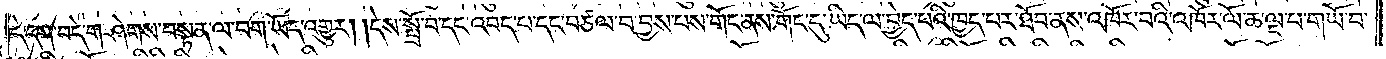དེ་དག་བདེ་གཤེགས་བསྟན་ལ་བག་ཡོད་འགྱུར། །དེས་སྤྲོ་བ་དང་འབད་པ་དང་བཙལ་བ་བྱས་པས་གོང་ནས་གོང་དུ་ཡིད་ལ་བྱེད་པའི་ཁྱད་པར་ཐོབ་ནས་འཁོར་བའི་འཁོར་ལོ་ཆ་ལྔ་པ་གཡོ་བ་
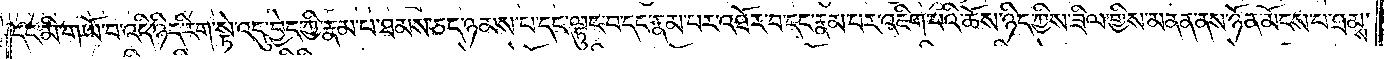དང་མི་གཡོ་བ་འདི་ཉིད་རིག་སྟེ་འདུ་བྱེད་ཀྱི་རྣམ་པ་ཐམས་ཅད་ཉམས་པ་དང་ལྟུང་བ་དང་རྣམ་པར་འཐོར་བ་དང་རྣམ་པར་འཇིག་པའི་ཆོས་ཉིད་ཀྱིས་ཟིལ་གྱིས་མནན་ནས་ཉོན་མོངས་པ་ཐམས་
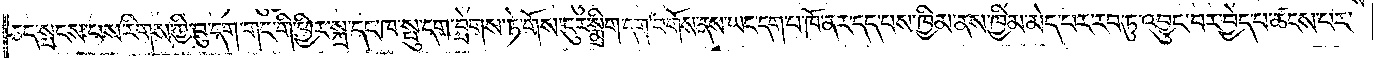ཅད་སྤངས་པས་རིགས་ཀྱི་བུ་དག་གང་གི་ཕྱིར་སྐྲ་དང་ཁ་སྤུ་དག་བྲེགས་ཏེ་གོས་ངུར་སྨྲིག་དག་བགོས་ནས་ཡང་དག་པ་ཁོ་ནར་དད་པས་ཁྱིམ་ནས་ཁྱིམ་མེད་པར་རབ་ཏུ་འབྱུང་བར་བྱེད་པ་ཚངས་པར་
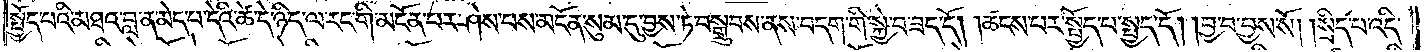སྤྱོད་པའི་མཐའ་བླ་ན་མེད་པ་དེའི་ཚེ་དེ་ཉིད་ལ་རང་གི་མངོན་པར་ཤེས་པས་མངོན་སུམ་དུ་བྱས་ཏེ་བསྒྲུབས་ནས་བདག་གི་སྐྱེ་བ་ཟད་དོ། །ཚངས་པར་སྤྱོད་པ་སྤྱད་དོ། །བྱ་བ་བྱས་སོ། །སྲིད་པ་འདི་
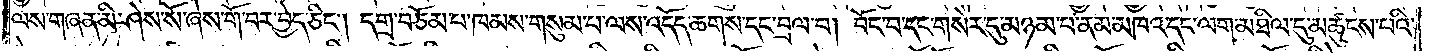ལས་གཞན་མི་ཤེས་སོ་ཞེས་གོ་བར་བྱེད་ཅིང༌། དགྲ་བཅོམ་པ་ཁམས་གསུམ་པ་ལས་འདོད་ཆགས་དང་བྲལ་བ། བོང་བ་དང་གསེར་དུ་མཉམ་པ་ནམ་མཁའ་དང་ལག་མཐིལ་དུ་མཚུངས་པའི་
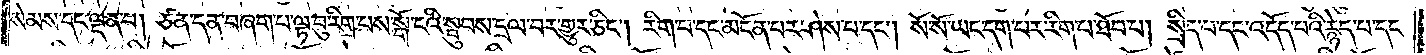སེམས་དང་ལྡན་པ། ཙན་དན་བཞག་པ་ལྟ་བུ་རིག་པས་སྒོ་ངའི་སྦུབས་དྲལ་བར་གྱུར་ཅིང༌། རིག་པ་དང་མངོན་པར་ཤེས་པ་དང༌། སོ་སོ་ཡང་དག་པར་རིག་པ་ཐོབ་པ། སྲིད་པ་དང་འདོད་པའི་རྙེད་པ་དང་
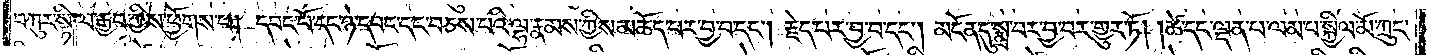བཀུར་སྟི་ལ་རྒྱབ་ཀྱིས་ཕྱོགས་པ། དབང་པོ་དང་ཉེ་དབང་དང་བཅས་པའི་ལྷ་རྣམས་ཀྱིས་མཆོད་པར་བྱ་བ་དང༌། རྗེད་པར་བྱ་བ་དང༌། མངོན་དུ་སྨྲ་བར་བྱ་བར་གྱུར་ཏོ། །ཚེ་དང་ལྡན་པ་ལམ་པ་སྐྱིལ་མོ་ཀྲུང་
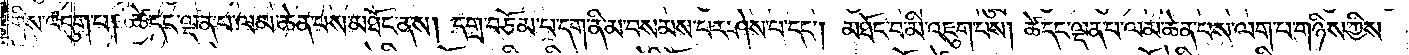གིས་འདུག་པ། ཚེ་དང་ལྡན་པ་ལམ་ཆེན་པས་མཐོང་ནས། དགྲ་བཅོམ་པ་དག་ནི་མ་བསམས་པར་ཤེས་པ་དང༌། མཐོང་བ་མི་འཇུག་པས། ཚེ་དང་ལྡན་པ་ལམ་ཆེན་པས་ལག་པ་གཉིས་ཀྱིས་
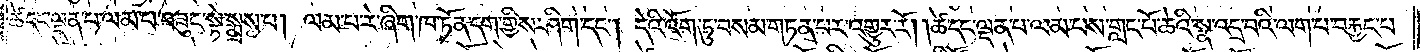ཚེ་དང་ལྡན་པ་ལམ་པ་བཟུང་སྟེ་སྨྲས་པ། ལམ་པ་རེ་ཞིག་ཁ་ཏོན་དག་གྱིས་ཤིག་དང༌། དེའི་འོག་ཏུ་བསམ་གཏན་པར་འགྱུར་རོ། །ཚེ་དང་ལྡན་པ་ལམ་པས་གླང་པོ་ཆེའི་སྣ་འདྲ་བའི་ལག་པ་བརྐྱང་པ་
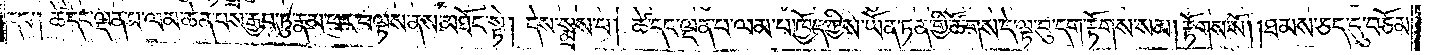དང༌། ཚེ་དང་ལྡན་པ་ལམ་ཆེན་པས་རྒྱབ་ཏུ་རྣམ་པར་བལྟས་ནས་མཐོང་སྟེ། དེས་སྨྲས་པ། ཚེ་དང་ལྡན་པ་ལམ་པ་ཁྱོད་ཀྱིས་ཡོན་ཏན་གྱི་ཚོགས་དེ་ལྟ་བུ་དག་རྟོགས་སམ། རྟོགས་སོ། །ཐམས་ཅད་དུ་བཅོམ་
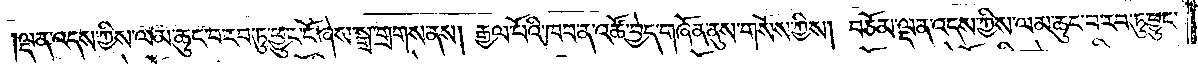ལྡན་འདས་ཀྱིས་ལམ་ཆུང་བ་རབ་ཏུ་ཕྱུང་ངོ་ཞེས་སྒྲ་གྲགས་ནས། རྒྱལ་པོའི་ཁབ་ན་འཚོ་བྱེད་གཞོན་ནུས་གསོས་ཀྱིས། བཅོམ་ལྡན་འདས་ཀྱིས་ལམ་ཆུང་བ་རབ་ཏུ་བྱུང་
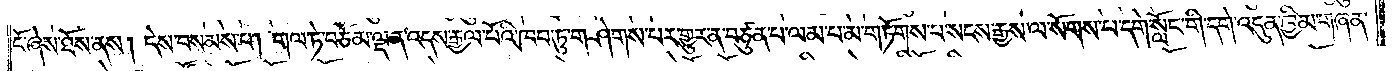ངོ་ཞེས་ཐོས་ནས། དེས་བསམས་པ། གལ་ཏེ་བཅོམ་ལྡན་འདས་རྒྱལ་པོའི་ཁབ་ཏུ་གཤེགས་པར་གྱུར་ན་བཙུན་པ་ལམ་པ་མ་གཏོགས་པ་སངས་རྒྱས་ལ་སོགས་པ་དགེ་སློང་གི་དགེ་འདུན་ཁྱིམ་གཞན་
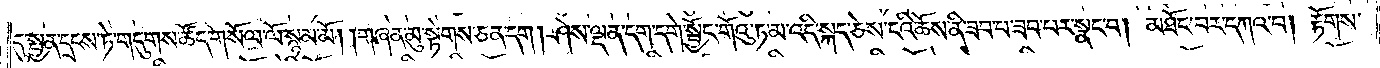དུ་སྤྱན་དྲངས་ཏེ་གདུགས་ཚོད་གསོལ་ལོ་སྙམ་མོ། །གཞན་མུ་སྟེགས་ཅན་དག། ཤེས་ལྡན་དག་དགེ་སྦྱོང་གོའུ་ཏ་མ་འདི་སྐད་ཅེས་ངའི་ཆོས་ནི་ཟབ་པ་ཟབ་པར་སྣང་བ། མཐོང་བར་དཀའ་བ། རྟོགས་
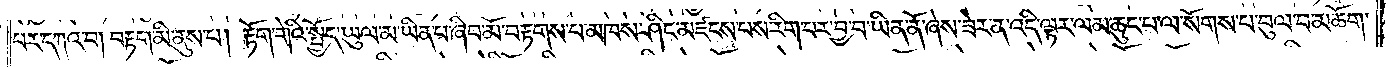པར་དཀའ་བ། བརྟག་མི་ནུས་པ། རྟོག་གེའི་སྤྱོད་ཡུལ་མ་ཡིན་པ་ཞིབ་མོ་བརྟགས་པ་མཁས་ཤིང་མཛངས་པས་རིག་པར་བྱ་བ་ཡིན་ནོ་ཞེས་ཟེར་ན་འདི་ལྟར་ལམ་ཆུང་པ་ལ་སོགས་པ་བུལ་བ་མཆོག་
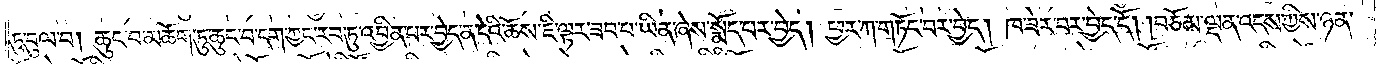ཏུ་བུལ་བ། ཆུང་བ་མཆོག་ཏུ་ཆུང་བ་དག་ཀྱང་རབ་ཏུ་འབྱིན་པར་བྱེད་ན་དེའི་ཆོས་ཇི་ལྟར་ཟབ་པ་ཡིན་ཞེས་སྨོད་པར་བྱེད། ཕྱར་ཀ་གཏོང་བར་བྱེད། ཁ་ཟེར་བར་བྱེད་དོ། །བཅོམ་ལྡན་འདས་ཀྱིས་ཉན་
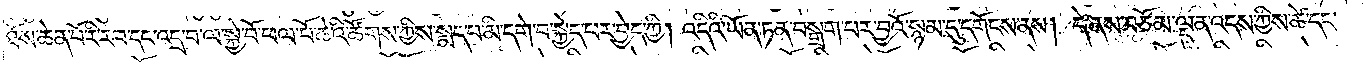ཐོས་ཆེན་པོ་རི་རབ་དང་འདྲ་བ་ལ་སྐྱེ་བོ་ཕལ་པོ་ཆེའི་ཚོགས་ཀྱིས་སྨད་པ་མི་དགེ་བ་སྐྱེད་པར་བྱེད་ཀྱི། འདིའི་ཡོན་ཏན་བསྒྲག་པར་བྱའོ་སྙམ་དུ་དགོངས་ནས། དེ་ནས་བཅོམ་ལྡན་འདས་ཀྱིས་ཚེ་དང་
